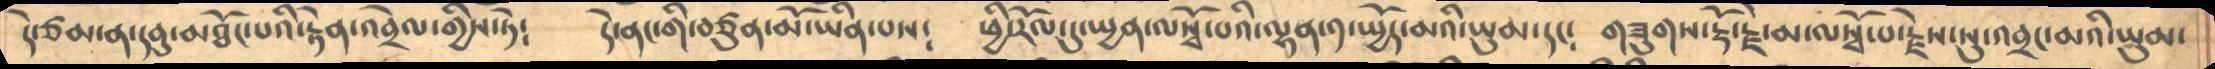དེ་ཙམ་ན་དབུ་མཐོང་པའི་རྟེན་འབྲེལ་གྱིས་ཏེ༴   དེ་ནང་གི་བཙུན་མོ་ཡིན་པས༴   ཕྱི་རོལ་དུ་སྤྱན་ལསྭོ་པའི་ལྷན་༡་སྤྱོད་མའི་ཡུམ་དང༴  གཟུགས་རྡོ་རྗེ་མ་ལསྭོ་པ་རྗེས་སུ་འབྲང་མའི་ཡུམ་
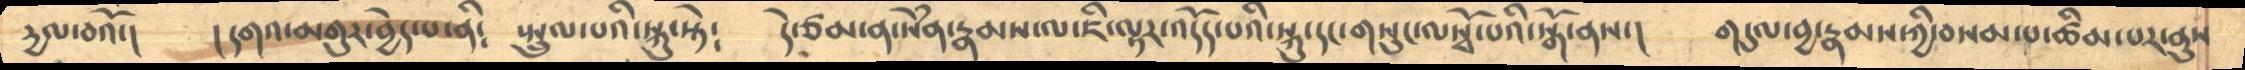དྱལ་བའོ་།      །དགའ་མགུར་བྱེད་པ་ནི༴   སྤྲུལ་པའི་སྐུ་སྟེ༴   དེ་ཙམ་ན་སེཾན་རྣམས་ལ་ཇི་ལྟར་འདོད་པའི་སྐུ་དང་གསུང་ལསྭོ་པའི་སྒོ་ནས་།   གདུལ་བྱ་རྣམས་ཀྱི་བསམ་པ་ཚིམ་པར་ནུས
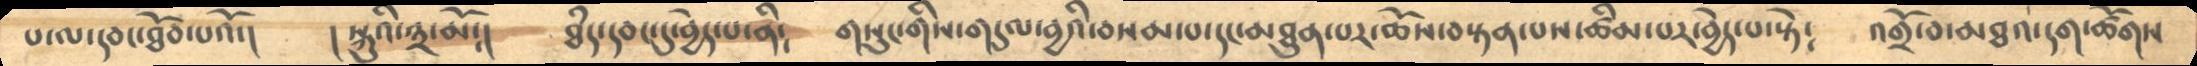པ་ལ་དབང་ཐོབ་པའོ་།   ། སྐུའི་༣་མོ༴།    ཐཾད་དབང་དུ་བྱེད་པ་ནི༴   གསུང་གིས་གདུལ་བྱའི་བསམ་པ་དང་མཐུན་པར་ཆོས་བསྟན་པས་ཚིམ་པར་བྱེད་པ་སྟེ༴  འགྲོ་བ་མཐའ་དག་ཚོགས
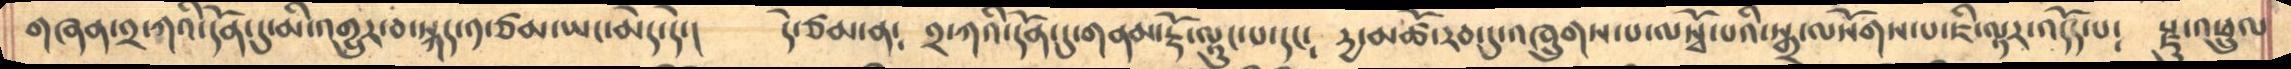གཞན་༢་ཀའི་དོན་དུ་མི་འགྱུར་བ་སྐད་༡་ཙམ་ཡང་མེད་དེ་།     དེ་ཙམ་ན༴  ༢་ཀའི་དོན་དུ་གནམ་རྡོ་ལྷུང་པ་དང༴   དྱ་མཚོ་རབ་དུ་འཁྲུགས་པ་ལསྭོ་པའི་སྒྲ་ལསོགས་པ་ཇི་ལྟར་འདོད་པ༴  རྫུ་འཕྲུལ
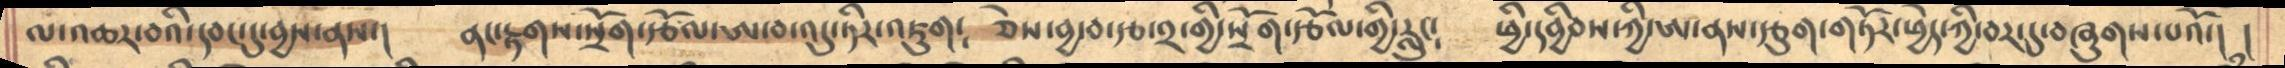ལ་འཆར་བའི་དབང་དུ་བྱས་ནས་།    ནང་རྟགས་སྲོག་རྩོལ་ཨ་བ་འདུ་ཏིར་འཇུག༴  ཅེས་བྱ་བ་རྩ་༢་གྱི་སྲོག་རྩོལ་གྱི་རླུང༴  ཕྱི་དབྱིབས་ཀྱི་ཨ་ནས་རྩུག་གཏོར་ཕྱེད་ཀྱི་བར་དུ་བཞུགས་པའོ་།  །
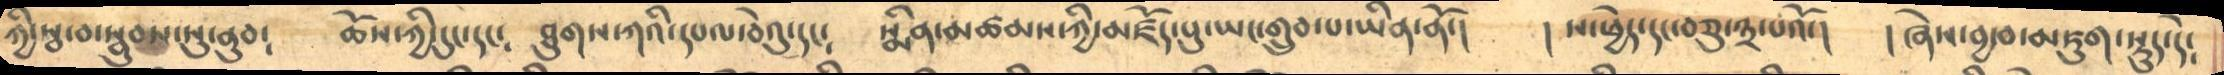ཀྱི་སྦ་བ་སྦུབས་སུ་ནུབ༴    ཆོས་ཀྱི་དུང་དང༴   ཐུགས་ཀའི་དཔལ་བེའུ་དང༴  སྨིན་མཚམས་ཀྱི་མཛོད་པུ་ཡང་གྲུབ་པ་ཡིན་ནོ་།   ། ས་ཕྱེད་དང་བཅུ་༣་པའོ་།   ། ཞེས་བྱ་བ་མཇུག་སྡུད་དེ༴
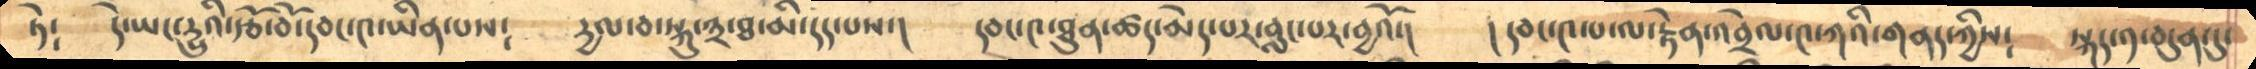ཏེ༴   དེ་ཡང་དྱུའི་རྩེ་མོ་དབང་༤་ཡིན་པས༴   དྱལ་བ་སྐུ་༣་ཐ་མི་དད་པས་།   དབང་༤་ཐུན་ཚད་མེད་པར་བླང་པར་བྱའོ་།    ། དབང་༤་པ་ལ་རྟེན་འབྲེལ་༤་ཀའི་གནད་ཀྱིས༴  སྐད་༡་བདུན་དུ་
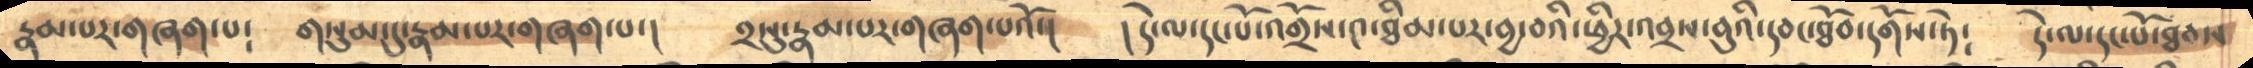རྣམ་པར་གཞག་པ༴    གསུམ་དུ་རྣམ་པར་གཞག་པ་།    ༢སུ་རྣམ་པར་གཞག་པའོ་།   །དེ་ལ་དང་པོ་འགྲོས་༤་ཐིམ་པར་བྱ་བའི་ཕྱིར་འབྲས་བུའི་དབང་ཐོབ་དགོས་ཏེ༴   དེ་ལ་དང་པོ་ཐབས
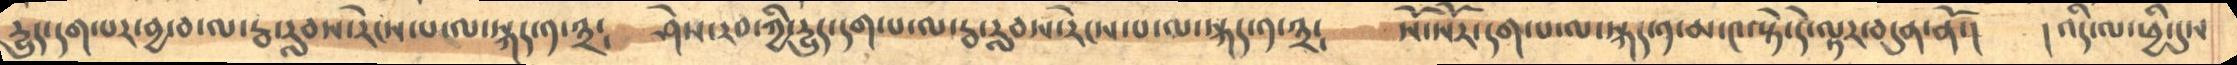དྱུད་དག་པར་བྱ་བ་ལ་རྦ་རླབས་རེངས་པ་ལ་སྐད་༡་༣༴    ཤེས་རབ་ཀྱི་དྱུད་དག་པ་ལ་རྦ་རླབས་རེངས་པ་ལ་སྐད་༡་༣༴   སོ་སོར་དག་པ་ལ་སྐད་༡་མ་༤་སྟེ་དེ་ལྟར་བདུན་ནོ་།   ། འདི་ལ་ཕྱི་དུས
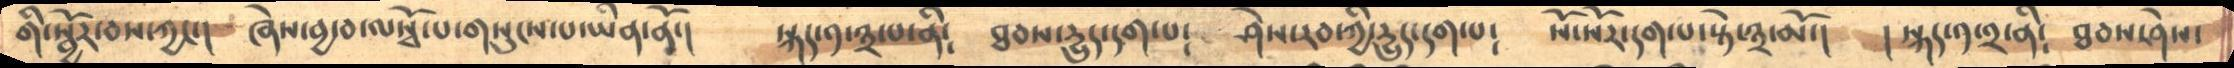གི་སྦྱོར་བས་ཀྱང་།    ཞེས་བྱ་བ་ལསྭོ་པ་གསུངས་པ་ཡིན་ནོ་།    སྐད་༡་༣་པ་ནི༴   ཐབས་དྱུད་དག་པ༴   ཤེས་རབ་ཀྱི་དྱུད་དག་པ༴  སོ་སོར་དག་པ་སྟེ་༣་མོ་།  ། སྐད་༡་༢་ནི༴  ཐབས་ཤེས་
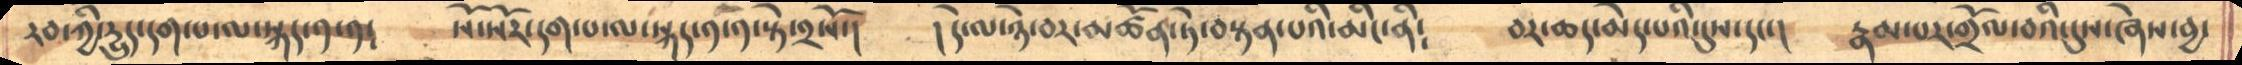རབ་ཀྱི་དྱུད་དག་པ་ལ་སྐད་༡་༡༴    སོ་སོར་དག་པ་ལ་སྐད་༡་༡་སྟེ་༢སོ་།   །དེ་ལ་ཉེ་བར་མཚོན་ཏེ་བསྟན་པའི་མིང་ནི༴  བར་ཆད་མེད་པའི་དུས་དང་།   རྣམ་པར་གྲོལ་བའི་དུས་ཞེས་བྱ་
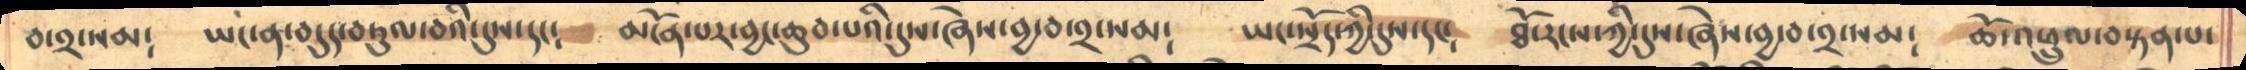བ་༢་སམ༴   ཡང་ན་བདུད་བཏུལ་བའི་དུས་དང༴    མངོན་པར་བྱང་ཆུབ་པའི་དུས་ཞེས་བྱ་བ་༢་སམ༴    ཡང་སྲོད་ཀྱི་དུས་དང༴    ཐོ་རངས་ཀྱི་དུས་ཞེས་བྱ་བ་༢་སམ༴    ཆོ་འཕྲུལ་བསྟན་པ་
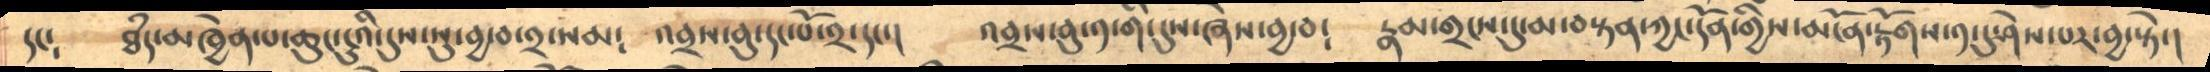དང༴    ཐཾད་མཁྱེན་པ་ཆུང་ངུའི་དུས་སུ་བྱ་བ་༢་སམ༴    འབྲས་བུ་དང་པོ་༢་དང༴   འབྲས་བུ་༡་གི་དུས་ཞེས་བྱ་བ༴    རྣམ་གྲངས་དུ་མ་བསྟན་ཀྱང་དོན་གྱིས་མངོན་རྟོགས་༡་དུ་ཤེས་པར་བྱ་སྟེ་།
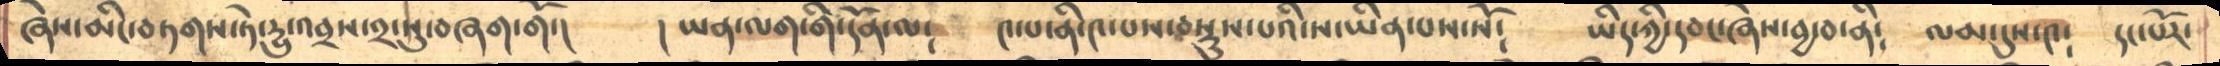ཞེས་མིང་བཏགས་ཏེ་དྱུ་འབྲས་༢་སུ་བཞག་གོ་།    ། ཡན་ལག་གི་དོན་ལ༴    ༤་པ་ནི་༤་པས་བསྡུས་པའི་ས་ཡིན་པས་སོ༴    ཡིད་ཀྱི་དབང་ཞེས་བྱ་བ་ནི༴    ལམ་དུས་༤༴   དང་པོར༴
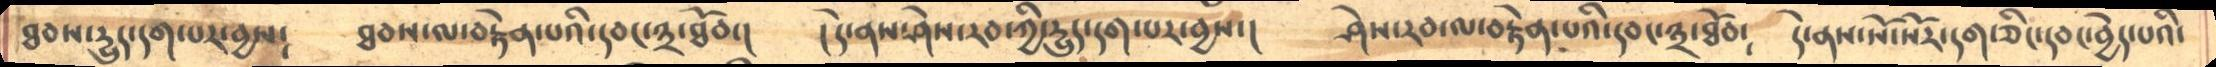ཐབས་དྱུད་དག་པར་བྱས༴   ཐབས་ལ་བརྟེན་པའི་དབང་༣་ཐོབ་།   །དེ་ནས་ཤེས་རབ་ཀྱི་དྱུད་དག་པར་བྱསོ་།    ཤེས་རབ་ལ་བརྟེན་པའི་དབང་༣་ཐོབ༴    དེ་ནས་སོ་སོར་དག་ཅིང་དབང་བྱེད་པའི་
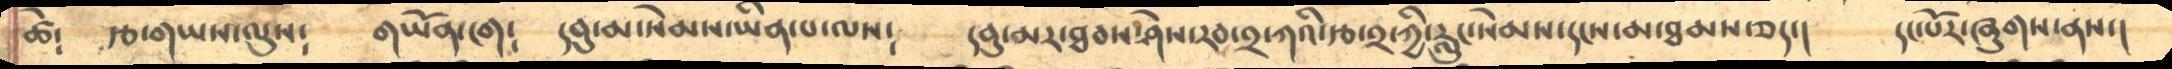ཚེ༴    རྩ་གཡས་ལུས༴   གཡོན་ངག༴   དབུ་མ་སེམས་ཡིན་པ་ལས༴     དབུ་མར་ཐབས་ཤེས་རབ་༢་ཀའི་རྩ་༢་ཀྱི་རླུང་སེམས་དངས་མ་ཐམས་ཅད་།   དང་པོར་ཞུགས་ནས་།
